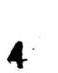4
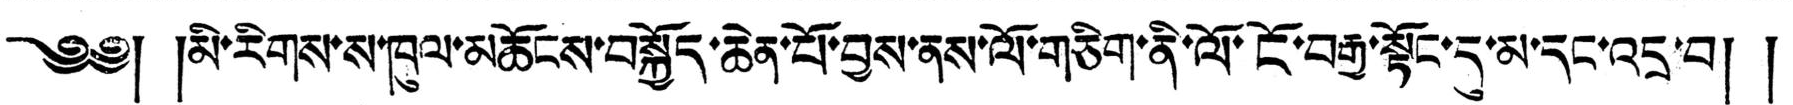༄༅། །མི་རིགས་ས་ཁུལ་མཆོངས་བསྐྱོད་ཆེན་པོ་བྱས་ནས་ལོ་གཅིག་ནི་ལོ་ངོ་བརྒྱ་སྟོང་དུ་མ་དང་འདྲ་བ། །
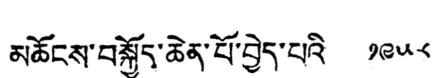མཆོངས་བསྐྱོད་ཆེན་པོ་བྱེད་པའི ༡༩༥༨
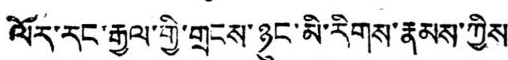ལོར་རང་རྒྱལ་གྱི་གྲངས་ཉུང་མི་རིགས་རྣམས་ཀྱིས
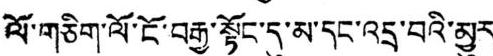ལོ་གཅིག་ལོ་ངོ་བརྒྱ་སྟོང་དུ་མ་དང་འདྲ་བའི་མྱུར་
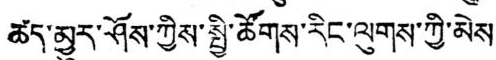ཚད་མྱུར་ཤོས་ཀྱིས་སྤྱི་ཚོགས་རིང་ལུགས་ཀྱི་མེས་
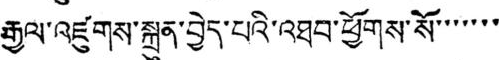རྒྱལ་འཛུགས་སྐྲུན་བྱེད་པའི་འཐབ་ཕྱོགས་སོ་་་་་་་
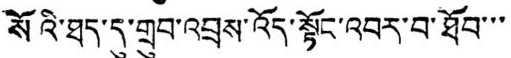སོའི་ཐད་དུ་གྲུབ་འབྲས་འོད་སྟོང་འབར་བ་ཐོབ་་་
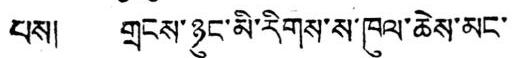པས། གྲངས་ཉུང་མི་རིགས་ས་ཁུལ་ཆེས་མང་
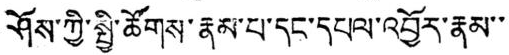ཤོས་ཀྱི་སྤྱི་ཚོགས་རྣམ་པ་དང་དཔལ་འབྱོར་རྣམ་་
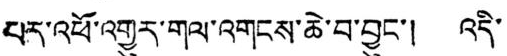པར་འཕོ་འགྱུར་གལ་འགངས་ཆེ་བ་བྱུང་། འདི་
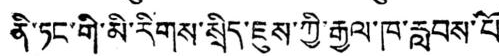ནི་ཏང་གི་མི་རིགས་སྲིད་ཇུས་ཀྱི་རྒྱལ་ཁ་རླབས་པོ་
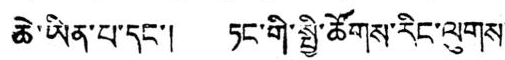ཆེ་ཡིན་པ་དང་། ཏང་གི་སྤྱི་ཚོགས་རིང་ལུགས་
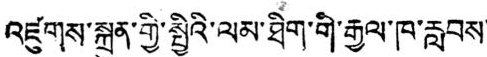འཛུགས་སྐྲུན་གྱི་སྤྱིའི་ལམ་ཐིག་གི་རྒྱལ་ཁ་རླབས་་
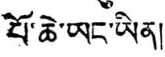པོ་ཆེ་ཡང་ཡིན།
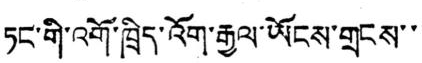ཏང་གི་འགོ་ཁྲིད་འོག་རྒྱལ་ཡོངས་གྲངས་་་
